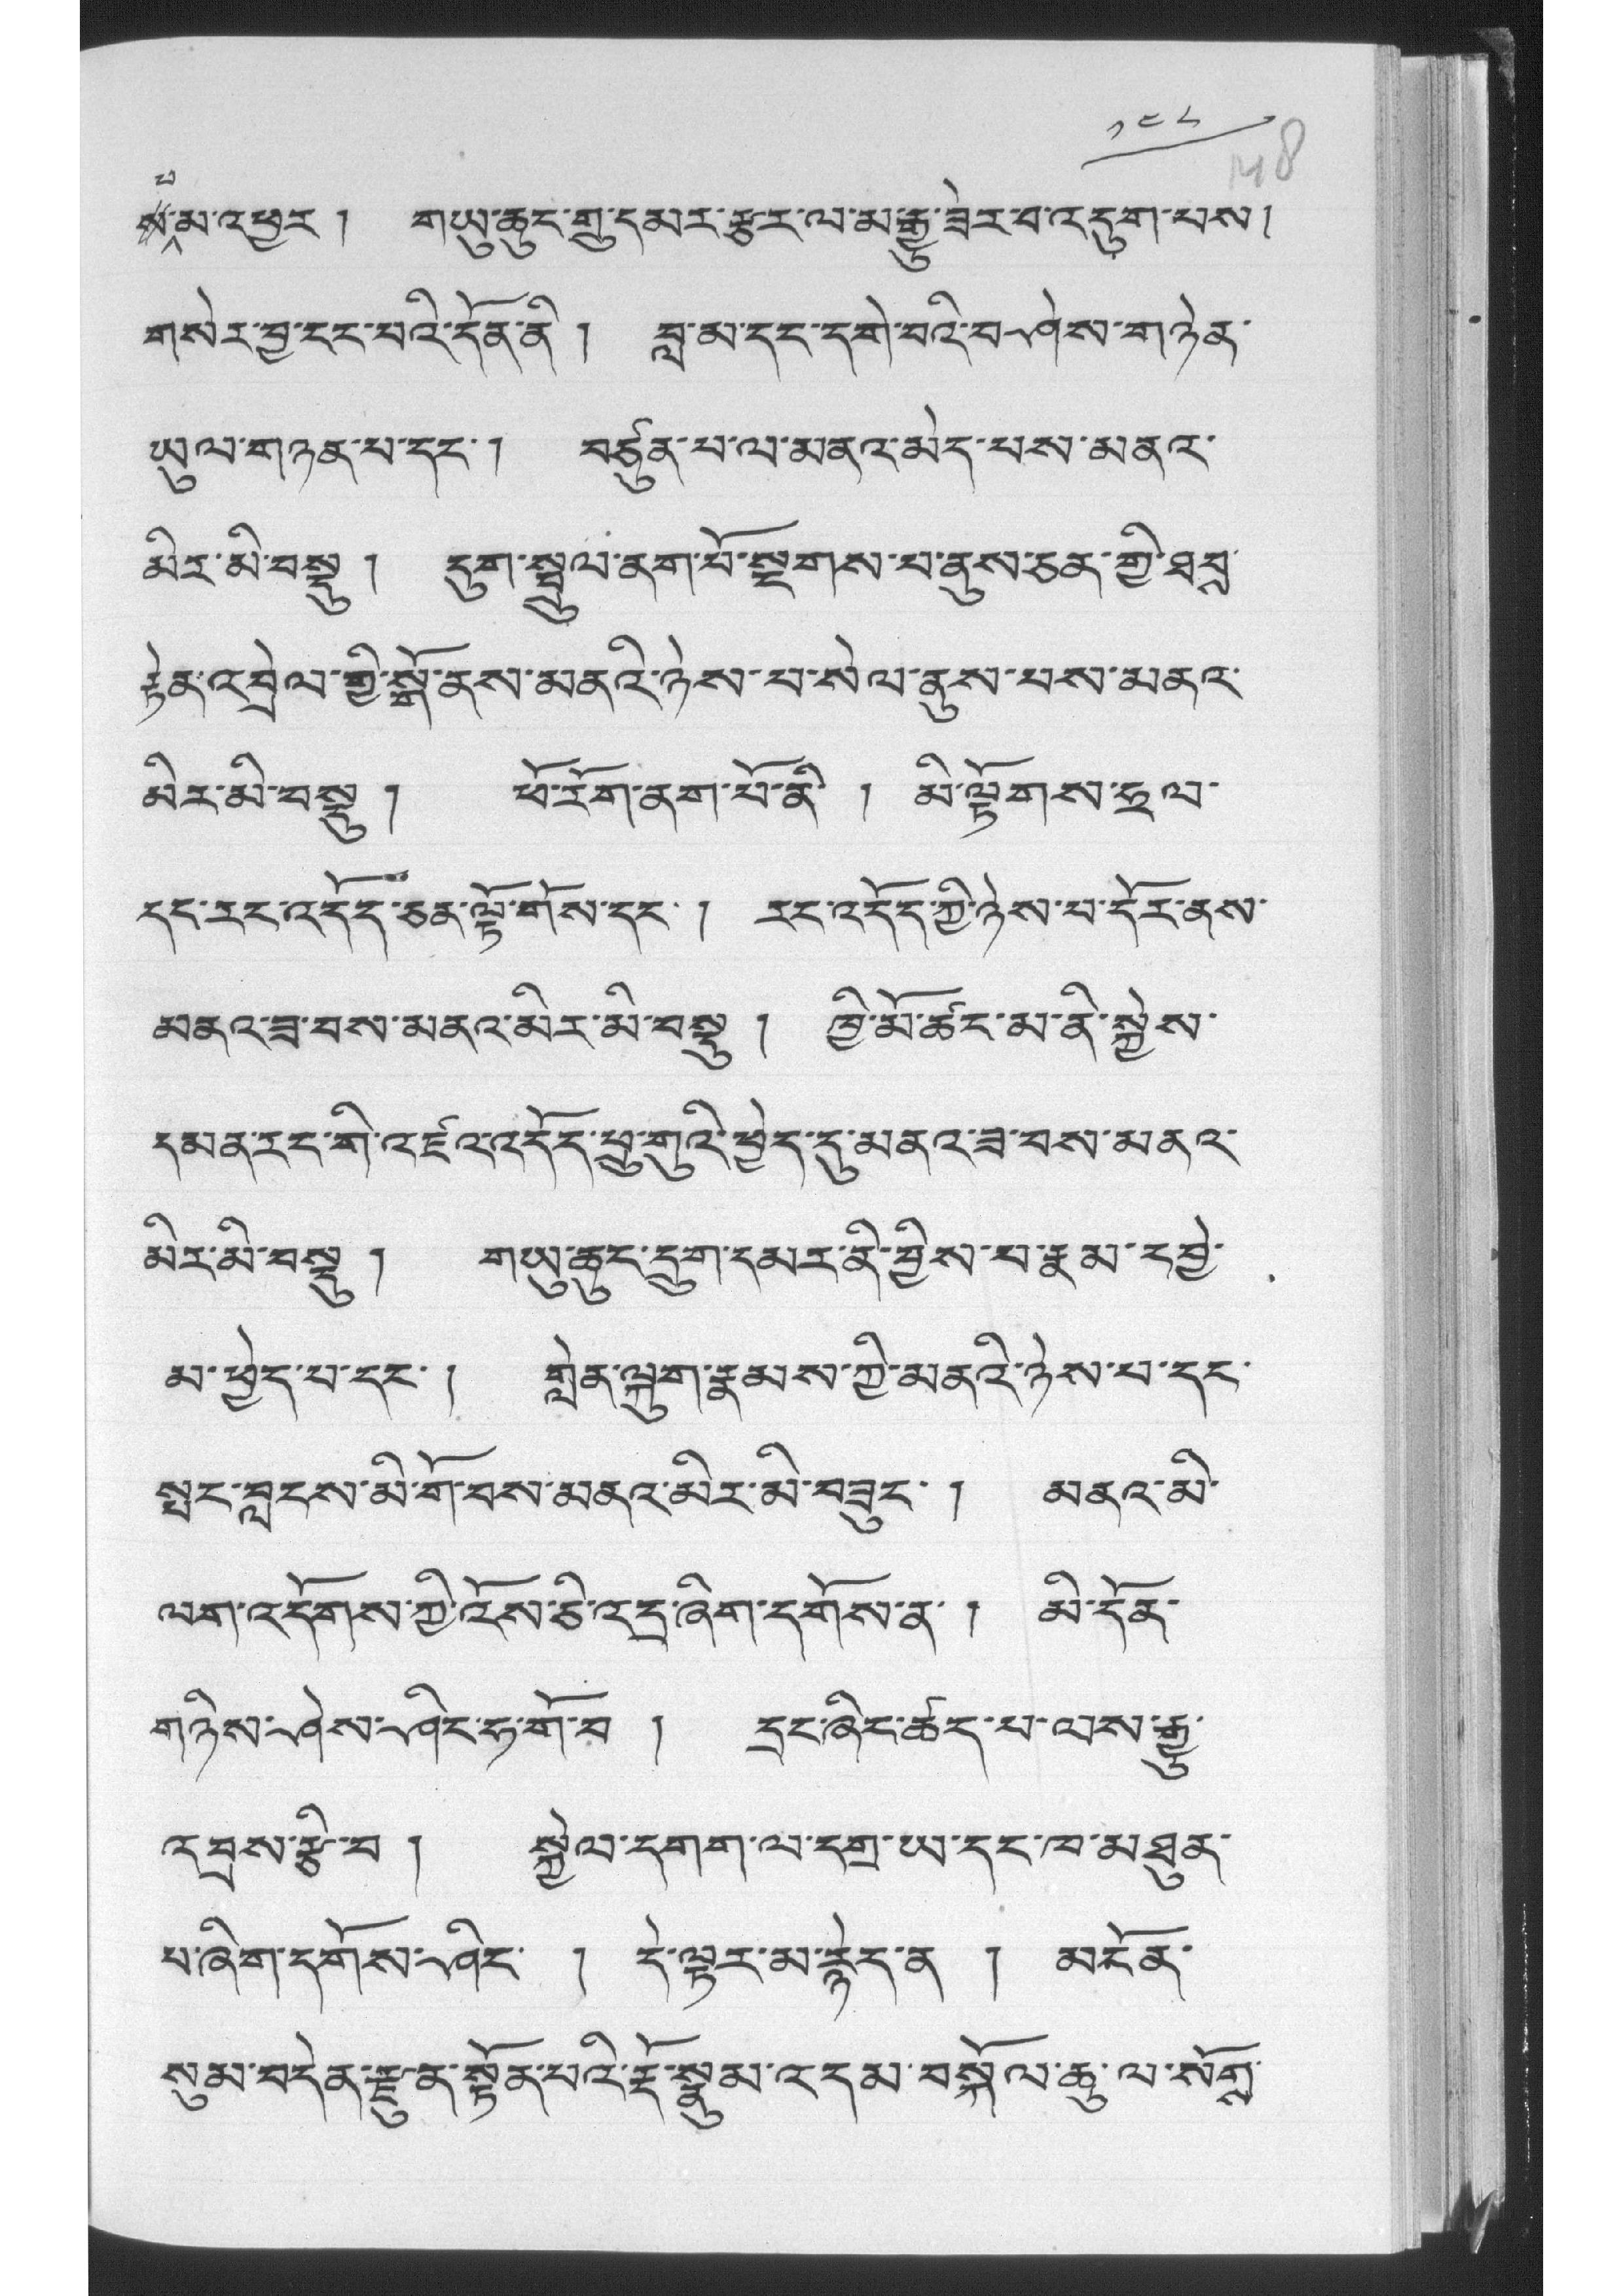༡༤༨
སཔ་མ་འཕྱར། གཡུ་ཆུང་གྲུ་དམར་རྩར་ལ་མ་རྒྱུ་ཟེར་བ་འདུག་པས།
གསེར་བྱ་ངང་པའི་དོན་ནི ། བླ་མ་དང་དགེ་བའི་བཤེས་གཉེན་
ཡུལ་གཉན་པ་དང་། བཙུན་པ་ལ་མནའ་མེད་པས་མནའ་
མིར་མི་བསྡུ ། དུག་སྦྲུལ་ནག་པོ་སྔགས་པ་ནུས་ཅན་གྱི་ཐབས་
རྟེན་འབྲེལ་གྱི་སྒོ་ནས་མནའི་ཉེས་པ་སེལ་ནུས་པས་མནའ་
མིར་མི་བསྡུ ། ཕོ་རོག་ནག་པོ་ནི་ ། མི་ལྟོགས་ཧྲལ་
དང་རང་འདོད་ཅན་ལྟོ་གོས་དང་། རང་འདོད་ཀྱི་ཉེས་པ་དོར་ནས་
མནའ་ཟ་བས་མནའ་མིར་མི་བསྡུ ། ཁྱི་མོ་ཚང་མ་ནི་སྐྱེས་
དམན་རང་གི་འཛའ་འདོད་ཕྲུ་གུའི་ཕྱེད་དུ་མནའ་ཟ་བས་མནའ་
མིར་མི་བསྡུ ། གཡུ་ཆུང་དྲུག་དམར་ནི་བྱིས་པ་རྣམ་དབྱེ་
མ་ཕྱེད་པ་དང་། གླེན་ལྐུག་རྣམས་ཀྱི་མནའི་ཉེས་པ་དང་
སྤང་བླངས་མི་གོ་བས་མནའ་མིར་མི་བཟུང་ ། མནའ་མི་
ལག་འདོགས་ཀྱི་འོས་ཅི་འདྲ་ཞིག་དགོས་ན་ ། མི་དོན་
གཉིས་ཤེས་ཤིང་ཧ་གོ་བ ། དྲང་ཞིང་ཚད་པ་ལས་རྒྱུ་
འབྲས་རྩི་བ ། སྐྱེལ་དགག་ལ་དགྲ་ཡ་དང་ཁ་མཐུན་
པ་ཞིག་དགོས་ཤིང་ ། དེ་ལྟར་མ་རྙེད་ན ། མངོན་
སུམ་བདེན་རྫུན་སྟོན་པའི་རྡོ་སྣུམ་འདམ་བསྐོལ་ཆུ་ལ་སོགས་
